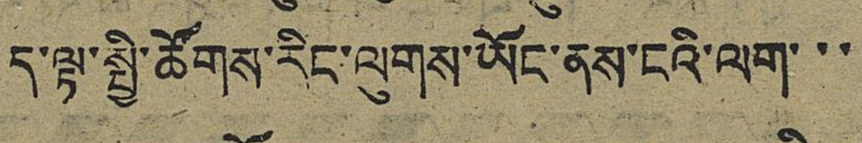ད་ལྟ་སྤྱི་ཚོགས་རིང་ལུགས་ཡོང་ནས་ངའི་ལག་་་
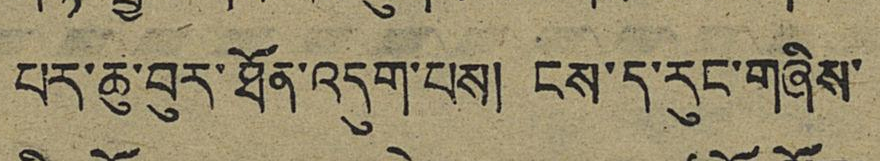པར་ཆུ་བུར་ཐོན་འདུག་པས། ངས་ད་རུང་གཞིས་
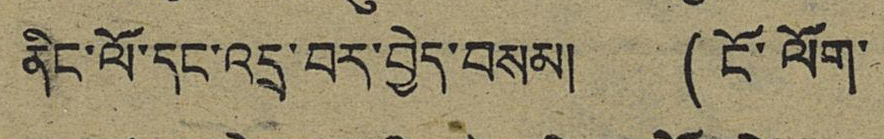ནིང་ལོ་དང་འདྲ་བར་བྱེད་བསམ། (ངོ་ལོག་
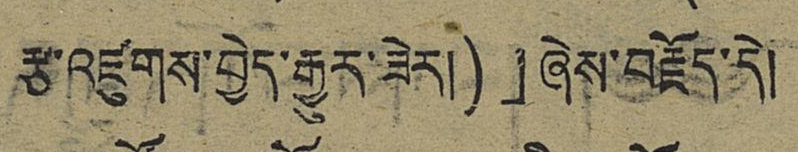རྩ་འཛུགས་བྱེད་རྒྱུར་ཟེར།)」ཞེས་བརྗོད་དེ།
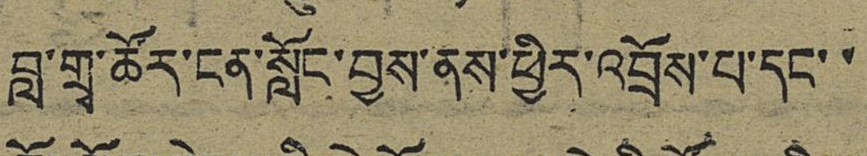བླ་གྲྭ་ཚོར་ངན་སློང་བྱས་ནས་ཕྱིར་འབྲོས་པ་དང་་
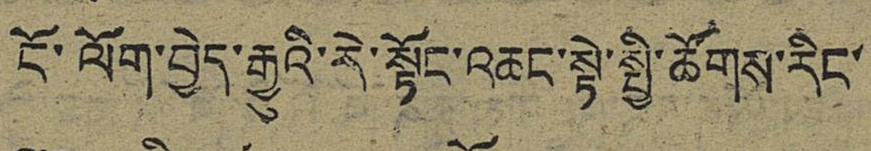ངོ་ལོག་བྱེད་རྒྱུའི་ནེ་སྟོང་འཆང་སྟེ་སྤྱི་ཚོགས་རིང་
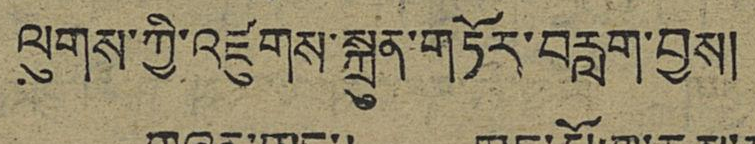ལུགས་ཀྱི་འཛུགས་སྐྲུན་གཏོར་བརླག་བྱས།
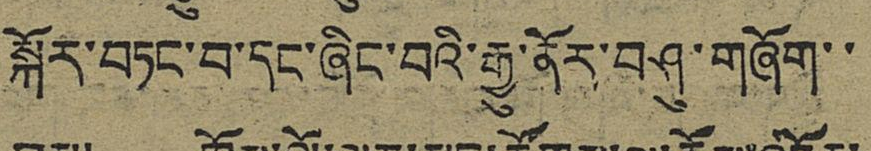སྐོར་བཏང་བ་དང་ཞིང་བའི་རྒྱུ་ནོར་བཤུ་གཞོག་
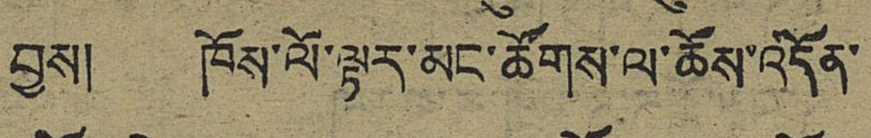བྱས། ཁོས་ལོ་ལྟར་མང་ཚོགས་ལ་ཆོས་འདོན་
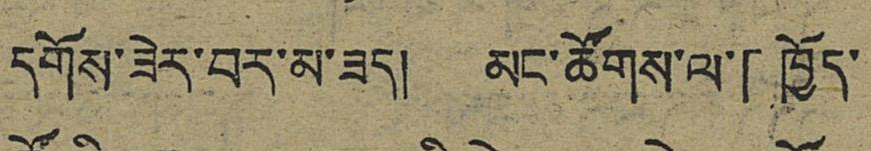དགོས་ཟེར་བར་མ་ཟད། མང་ཚོགས་ལ་「ཁྱོད་
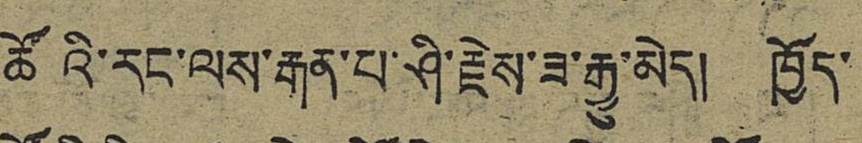ཚོའི་རང་ལས་རྒན་པ་ཤི་རྗེས་ཟ་རྒྱུ་མེད། ཁྱོད་
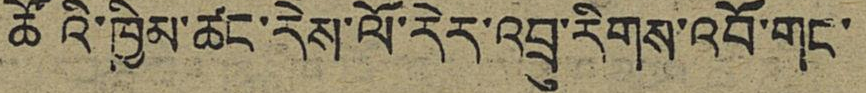ཚོའི་ཁྱིམ་ཚང་རེས་ལོ་རེར་འབྲུ་རིགས་འབོ་གང་
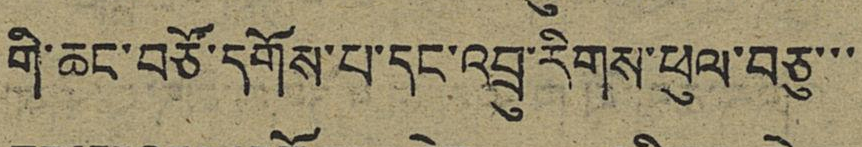གི་ཆང་བཙོ་དགོས་པ་དང་འབྲུ་རིགས་ཕུལ་བཅུ་་་
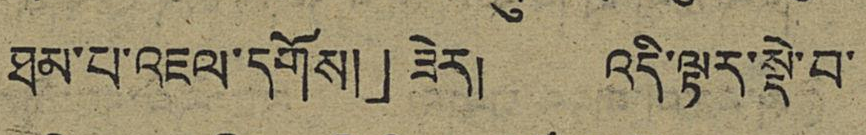ཐམ་པ་འཇལ་དགོས།」ཟེར། འདི་ལྟར་སྡེ་བ་
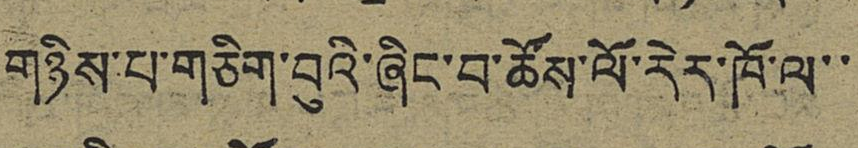གཉིས་པ་གཅིག་བུའི་ཞིང་བ་ཚོས་ལོ་རེར་ཁོ་ལ་་
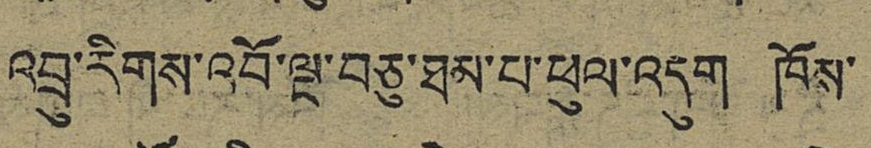འབྲུ་རིགས་འབོ་ལྔ་བཅུ་ཐམ་པ་ཕུལ་འདུག ཁོས་
